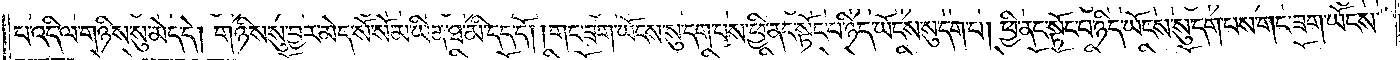པ་འདི་ལ་གཉིས་སུ་མེད་དེ། གཉིས་སུ་བྱར་མེད་སོ་སོ་མ་ཡིན་ཐ་མི་དད་དོ། །གང་ཟག་ཡོངས་སུ་དག་པས་ཕྱི་ནང་སྟོང་པ་ཉིད་ཡོངས་སུ་དག་པ། ཕྱི་ནང་སྟོང་པ་ཉིད་ཡོངས་སུ་དག་པས་གང་ཟག་ཡོངས་
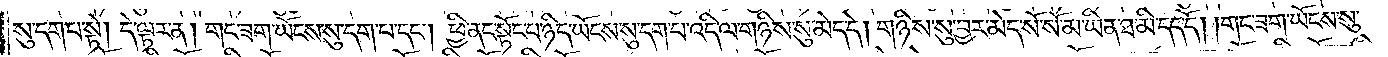སུ་དག་པ་སྟེ། དེ་ལྟར་ན། གང་ཟག་ཡོངས་སུ་དག་པ་དང༌། ཕྱི་ནང་སྟོང་པ་ཉིད་ཡོངས་སུ་དག་པ་འདི་ལ་གཉིས་སུ་མེད་དེ། གཉིས་སུ་བྱར་མེད་སོ་སོ་མ་ཡིན་ཐ་མི་དད་དོ། །གང་ཟག་ཡོངས་སུ་
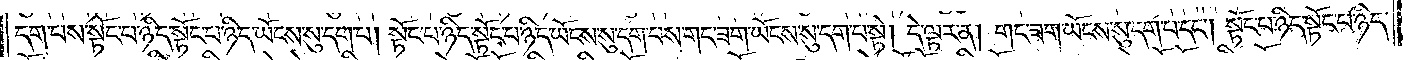དག་པས་སྟོང་པ་ཉིད་སྟོང་པ་ཉིད་ཡོངས་སུ་དག་པ། སྟོང་པ་ཉིད་སྟོང་པ་ཉིད་ཡོངས་སུ་དག་པས་གང་ཟག་ཡོངས་སུ་དག་པ་སྟེ། དེ་ལྟར་ན། གང་ཟག་ཡོངས་སུ་དག་པ་དང༌། སྟོང་པ་ཉིད་སྟོང་པ་ཉིད་
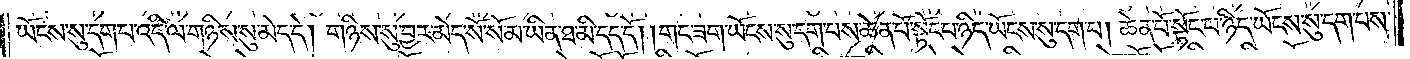ཡོངས་སུ་དག་པ་འདི་ལ་གཉིས་སུ་མེད་དེ། གཉིས་སུ་བྱར་མེད་སོ་སོ་མ་ཡིན་ཐ་མི་དད་དོ། །གང་ཟག་ཡོངས་སུ་དག་པས་ཆེན་པོ་སྟོང་པ་ཉིད་ཡོངས་སུ་དག་པ། ཆེན་པོ་སྟོང་པ་ཉིད་ཡོངས་སུ་དག་པས་
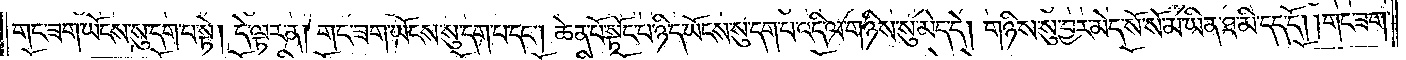གང་ཟག་ཡོངས་སུ་དག་པ་སྟེ། དེ་ལྟར་ན། གང་ཟག་ཡོངས་སུ་དག་པ་དང༌། ཆེན་པོ་སྟོང་པ་ཉིད་ཡོངས་སུ་དག་པ་འདི་ལ་གཉིས་སུ་མེད་དེ། གཉིས་སུ་བྱར་མེད་སོ་སོ་མ་ཡིན་ཐ་མི་དད་དོ། །གང་ཟག་
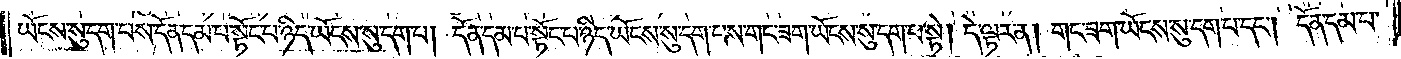ཡོངས་སུ་དག་པས་དོན་དམ་པ་སྟོང་པ་ཉིད་ཡོངས་སུ་དག་པ། དོན་དམ་པ་སྟོང་པ་ཉིད་ཡོངས་སུ་དག་པས་གང་ཟག་ཡོངས་སུ་དག་པ་སྟེ། དེ་ལྟར་ན། གང་ཟག་ཡོངས་སུ་དག་པ་དང༌། དོན་དམ་པ་
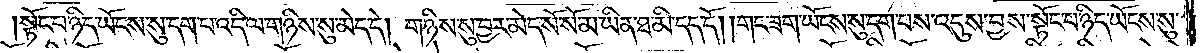སྟོང་པ་ཉིད་ཡོངས་སུ་དག་པ་འདི་ལ་གཉིས་སུ་མེད་དེ། གཉིས་སུ་བྱར་མེད་སོ་སོ་མ་ཡིན་ཐ་མི་དད་དོ། །གང་ཟག་ཡོངས་སུ་དག་པས་འདུས་བྱས་སྟོང་པ་ཉིད་ཡོངས་སུ་
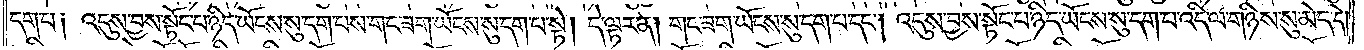དག་པ༑ འདུས་བྱས་སྟོང་པ་ཉིད་ཡོངས་སུ་དག་པས་གང་ཟག་ཡོངས་སུ་དག་པ་སྟེ། དེ་ལྟར་ན། གང་ཟག་ཡོངས་སུ་དག་པ་དང༌། འདུས་བྱས་སྟོང་པ་ཉིད་ཡོངས་སུ་དག་པ་འདི་ལ་གཉིས་སུ་མེད་དེ།
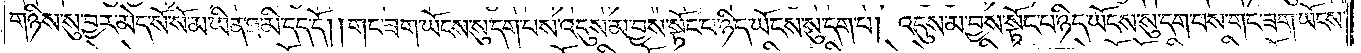གཉིས་སུ་བྱར་མེད་སོ་སོ་མ་ཡིན་ཐ་མི་དད་དོ། །གང་ཟག་ཡོངས་སུ་དག་པས་འདུས་མ་བྱས་སྟོང་པ་ཉིད་ཡོངས་སུ་དག་པ། འདུས་མ་བྱས་སྟོང་པ་ཉིད་ཡོངས་སུ་དག་པས་གང་ཟག་ཡོངས་
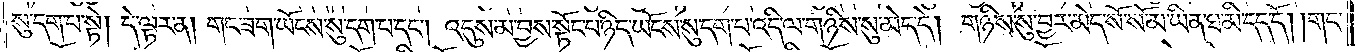སུ་དག་པ་སྟེ། དེ་ལྟར་ན། གང་ཟག་ཡོངས་སུ་དག་པ་དང༌། འདུས་མ་བྱས་སྟོང་པ་ཉིད་ཡོངས་སུ་དག་པ་འདི་ལ་གཉིས་སུ་མེད་དེ། གཉིས་སུ་བྱར་མེད་སོ་སོ་མ་ཡིན་ཐ་མི་དད་དོ། །གང་
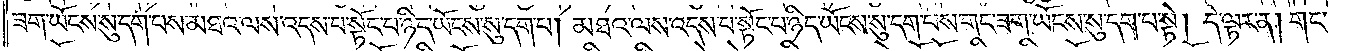ཟག་ཡོངས་སུ་དག་པས་མཐའ་ལས་འདས་པ་སྟོང་པ་ཉིད་ཡོངས་སུ་དག་པ། མཐའ་ལས་འདས་པ་སྟོང་པ་ཉིད་ཡོངས་སུ་དག་པས་གང་ཟག་ཡོངས་སུ་དག་པ་སྟེ། དེ་ལྟར་ན། གང་
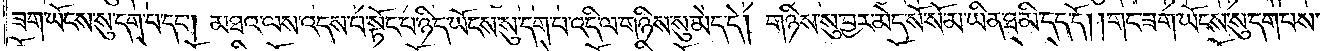ཟག་ཡོངས་སུ་དག་པ་དང༌། མཐའ་ལས་འདས་པ་སྟོང་པ་ཉིད་ཡོངས་སུ་དག་པ་འདི་ལ་གཉིས་སུ་མེད་དེ། གཉིས་སུ་བྱར་མེད་སོ་སོ་མ་ཡིན་ཐ་མི་དད་དོ། །གང་ཟག་ཡོངས་སུ་དག་པས་
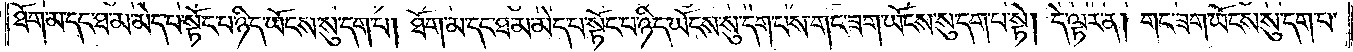ཐོག་མ་དང་ཐ་མ་མེད་པ་སྟོང་པ་ཉིད་ཡོངས་སུ་དག་པ། ཐོག་མ་དང་ཐ་མ་མེད་པ་སྟོང་པ་ཉིད་ཡོངས་སུ་དག་པས་གང་ཟག་ཡོངས་སུ་དག་པ་སྟེ། དེ་ལྟར་ན། གང་ཟག་ཡོངས་སུ་དག་པ་
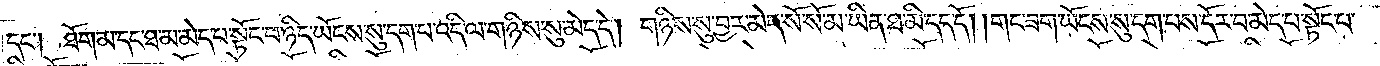དང༌། ཐོག་མ་དང་ཐ་མ་མེད་པ་སྟོང་པ་ཉིད་ཡོངས་སུ་དག་པ་འདི་ལ་གཉིས་སུ་མེད་དེ། གཉིས་སུ་བྱར་མེད་སོ་སོ་མ་ཡིན་ཐ་མི་དད་དོ། །གང་ཟག་ཡོངས་སུ་དག་པས་དོར་བ་མེད་པ་སྟོང་པ་
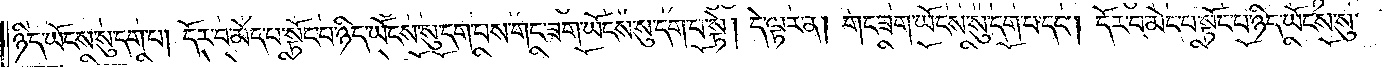ཉིད་ཡོངས་སུ་དག་པ། དོར་བ་མེད་པ་སྟོང་པ་ཉིད་ཡོངས་སུ་དག་པས་གང་ཟག་ཡོངས་སུ་དག་པ་སྟེ། དེ་ལྟར་ན། གང་ཟག་ཡོངས་སུ་དག་པ་དང༌། དོར་བ་མེད་པ་སྟོང་པ་ཉིད་ཡོངས་སུ་
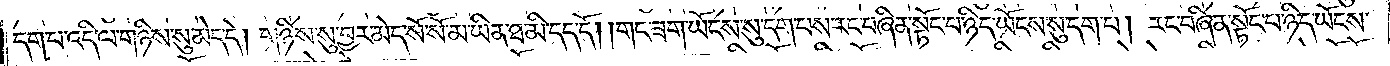དག་པ་འདི་ལ་གཉིས་སུ་མེད་དེ། གཉིས་སུ་བྱར་མེད་སོ་སོ་མ་ཡིན་ཐ་མི་དད་དོ། །གང་ཟག་ཡོངས་སུ་དག་པས་རང་བཞིན་སྟོང་པ་ཉིད་ཡོངས་སུ་དག་པ། རང་བཞིན་སྟོང་པ་ཉིད་ཡོངས་
